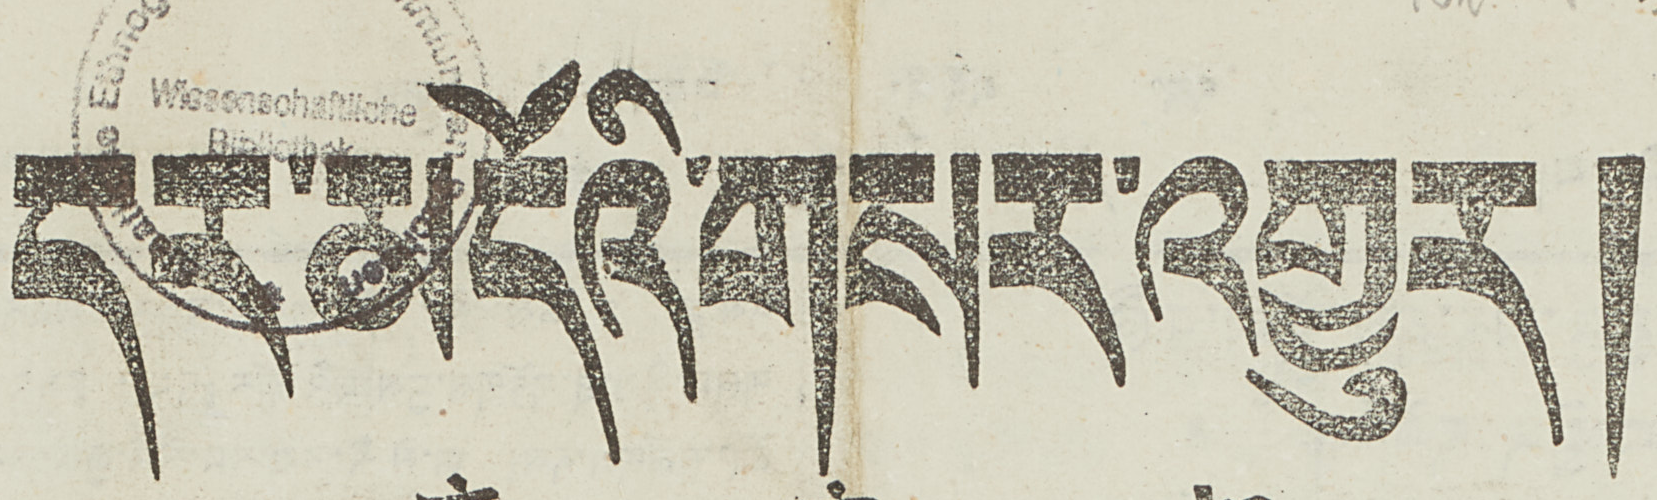དར་མདོའི་གསར་འགྱུར།
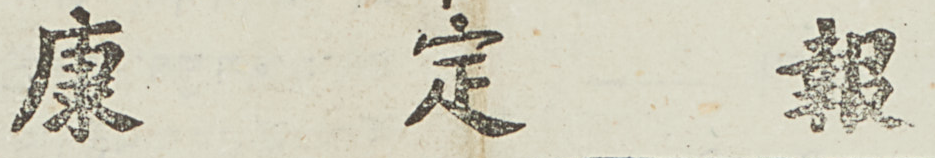康 定 報
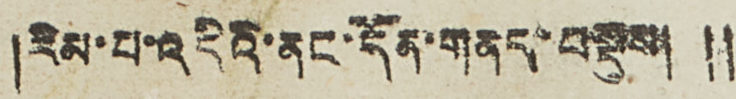།རིམ་པ་འདིའི་ནང་དོན་གནད་བསྡུས། ༎
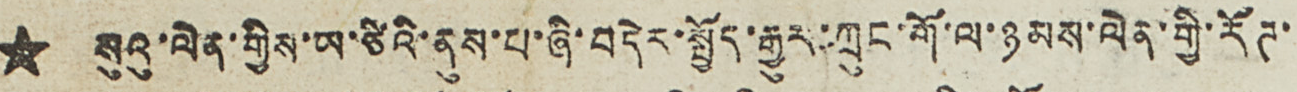★ སུའུ་ལེན་གྱིས་ཡ་ཙིའི་ནུས་པ་ཞི་བདེར་སྤྱོད་རྒྱུར་ཀྲུང་གོ་ལ་ཉམས་ལེན་གྱི་རོཊ་
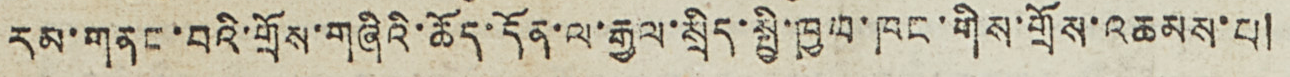རམ་གནང་བའི་གྲོས་གཞིའི་ཆོད་དོན་ལ་རྒྱལ་སྲིད་སྤྱི་ཁྱབ་ཁང་གིས་གྲོས་འཆམས་པ།
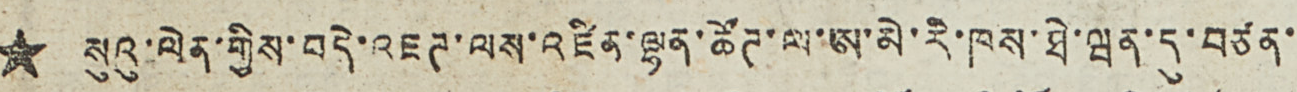★ སུའུ་ལེན་གྱིས་བདེ་འཇཊ་ལས་འཛིན་ལྷན་ཚོཊ་ལ་ཨ་མེ་རི་ཁས་ཐེ་ཝན་དུ་བཙན་
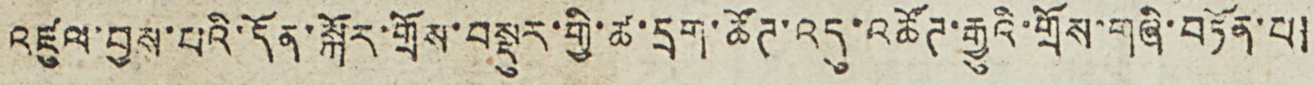འཛུལ་བྱས་པའི་དོན་སྐོར་གྲོས་བསྡུར་གྱི་ཚ་དྲག་ཚོཊ་འདུ་འཚོཊ་རྒྱུའི་གྲོས་གཞི་བཏོན་པ།
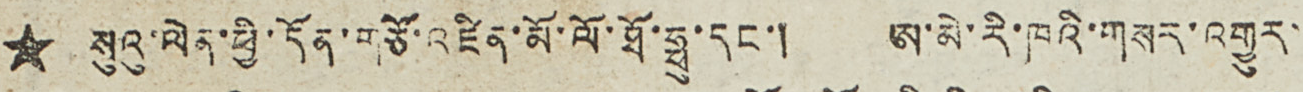★ སུའུ་ལེན་ཕྱི་དོན་གཙོ་འཛིན་མོ་ལོ་ཐོ་ཧྥུ་དང་། ཨ་མེ་རི་ཁའི་གསར་འགྱུར་
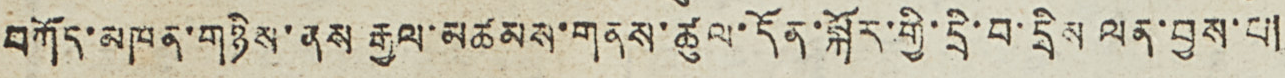བཀོད་མཁན་གཉིས་ནས རྒྱལ་མཚམས་གནས་ཚུལ་དོན་སྐོར་གྱི་དྲི་བ་དྲིས ལན་བྱས་པ།
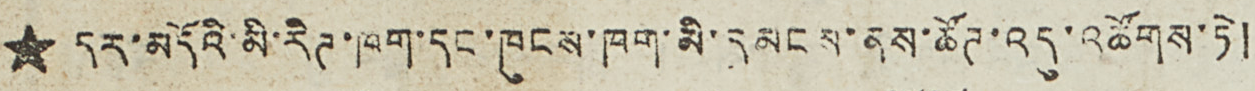★ དར་མདོའི་མི་རིཊ་ཁག་དང་ཁུངས་ཁག་མི་དམངས་ནས་ཚོཊ་འདུ་འཚོགས་ཏེ།
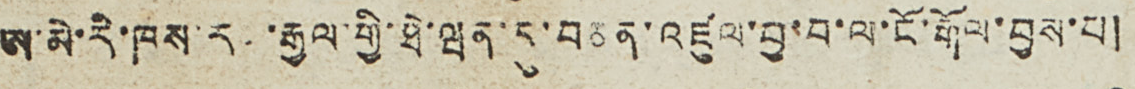ཨ་མེ་རི་ཁས་རང་རྒྱལ་གྱི་ཐེ་ཝན་དུ་བཅན་འཛུལ་བྱ་བ་ལ་ངོ་རྒོལ་བྱས་པ།
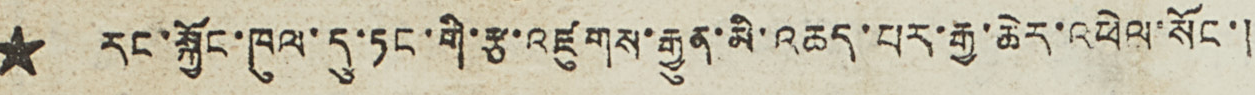★ རང་སྐྱོང་ཁུལ་དུ་ཏང་གི་རྩ་འཛུགས་རྒྱུན་མི་འཆད་པར་རྒྱ་ཆེར་འཕེལ་སོང་།
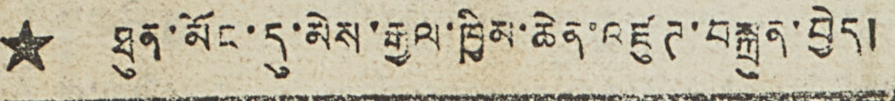★ ཐུན་མོང་དུ་མེས་རྒྱལ་ཁྱིམ་ཆེན་འཛུཊ་བསྐྲུན་བྱེད།
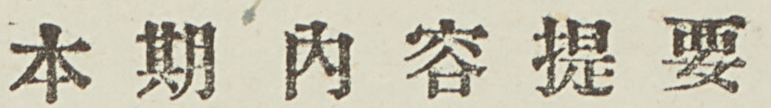本 期 內 容 提 要
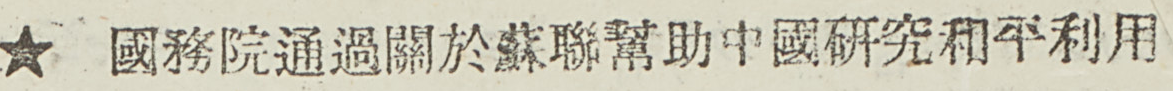★ 國務院通過關於蘇聯幫助中國研究和平利用
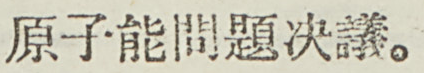原子能問題決議。
